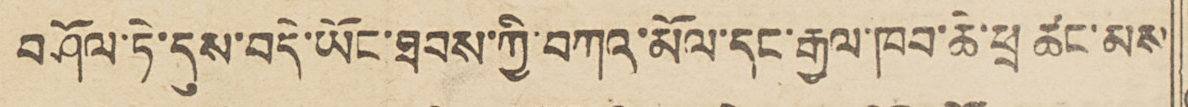བཤོལ་ཏེ་དུས་བདེ་ཡོང་ཐབས་ཀྱི་བཀའ་མོལ་དང་རྒྱལ་ཁབ་ཆེ་ཕྲ ཚང་མས
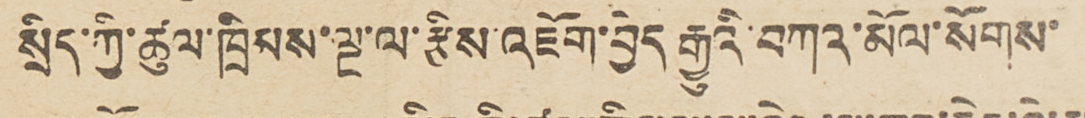སྲིད་ཀྱི་ཚུལ་ཁྲིམས་ལྔ་ལ་རྩིས་འཇོག་བྱེད རྒྱུའི་བཀའ་མོལ་སོགས་
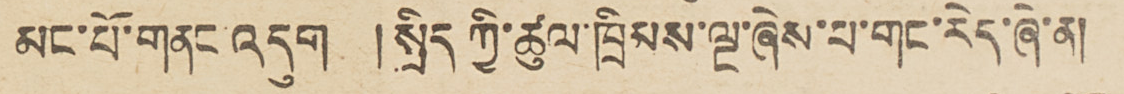མང་པོ་གནང་འདུག །སྲིད ཀྱི་ཚུལ་ཁྲིམས་ལྔ་ཞེས་པ་གང་རེད་ཞེ་ན།
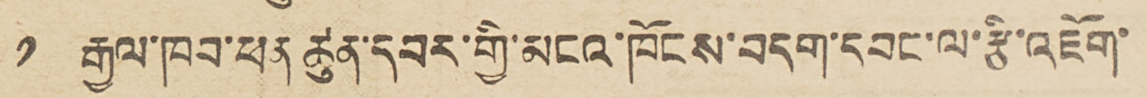༡ རྒྱལ་ཁབ་ཕན ཚུན་དབར་གྱི་མངའ་ཁོངས་བདག་དབང་ལ་རྩི་འཇོག་
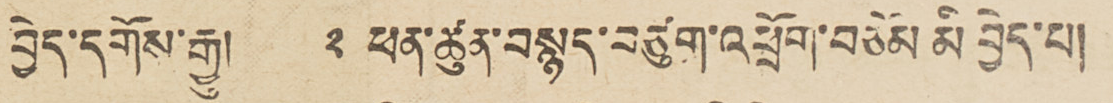བྱེད་དགོས་རྒྱུ། ༢ ཕན་ཚུན་བསྙད་བཙུག་འཕྲོག་བཅོམ མི བྱེད་པ།
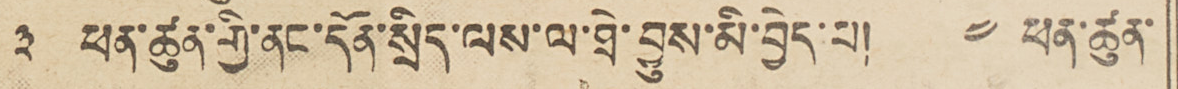༣ ཕན་ཚུན་གྱི་ནང་དོན་སྲིད་ལས་ལ་ཐེ་བྱུས་མི་བྱེད་པ། ༤ ཕན་ཚུན་
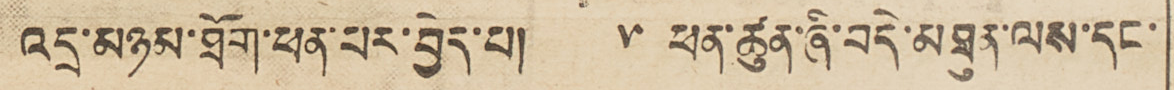འདྲ་མཉམ་ཐོག་ཕན་པར་བྱེད་པ། ༥ ཕན་ཚུན་ཞི་བདེ་མཐུན་ལས་དང་
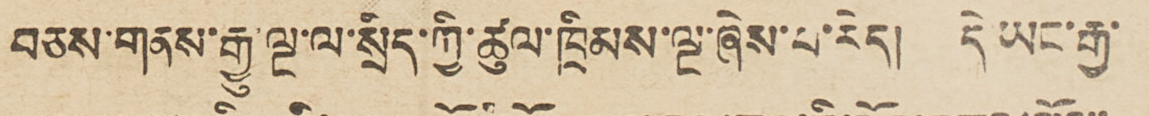བཅས་གནས་རྒྱུ་ལྔ་ལ་སྲིད་ཀྱི་ཚུལ་ཁྲིམས་ལྔ་ཞེས་པ་རེད། དེ ཡང་རྒྱ་
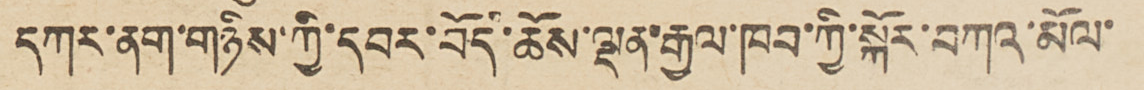དཀར་ནག་གཉིས་ཀྱི་དབར་བོད་ཆོས་ལྡན་རྒྱལ་ཁབ་ཀྱི་སྐོར་བཀའ་མོལ་
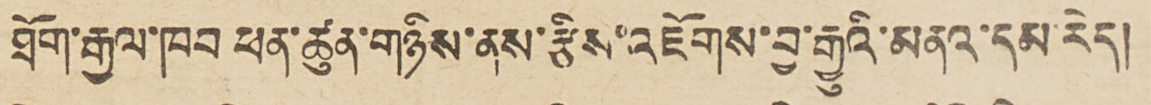ཐོག་རྒྱལ་ཁབ ཕན་ཚུན་གཉིས་ནས་རྩིས་འཇོགས་བྱ་རྒྱུའི་མནའ་དམ་རེད།
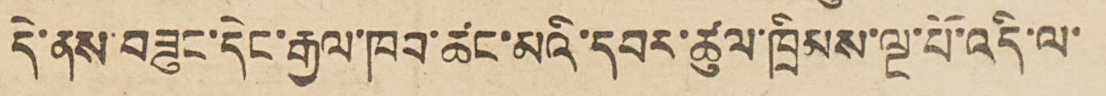དེ་ནས་བཟུང་དེང་རྒྱལ་ཁབ་ཚང་མའི་དབར་ཚུལ་ཁྲིམས་ལྔ་པོ་འདི་ལ་
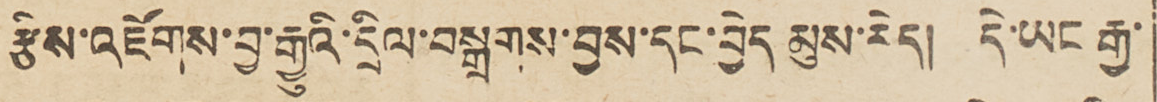རྩིས་འཇོགས་བྱ་རྒྱུའི་དྲིལ་བསྒྲགས་བྱས་དང་བྱེད མུས་རེད། དེ་ཡང རྒྱ་
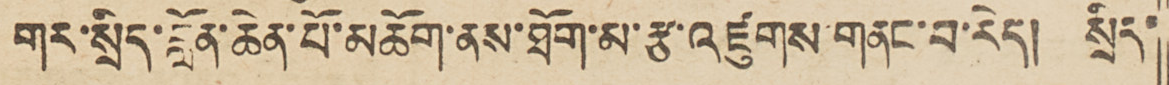གར་སྲིད་བློན་ཆེན་པོ་མཆོག་ནས་ཐོག་མ་རྩ་འཛུགས་གནང་བ་རེད། སྲིད་
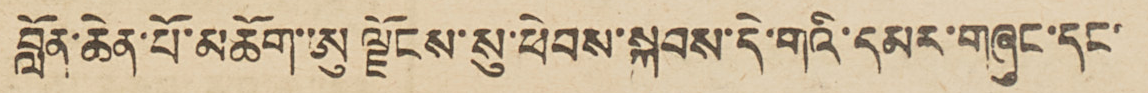བློན་ཆེན་པོ་མཆོག་ཨུ ལྗོངས་སུ་ཕེབས་སྐབས་དེ་གའི་དམར་གཞུང་དང་
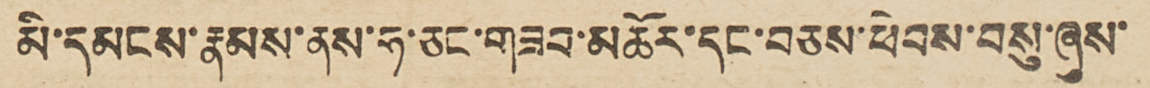མི་དམངས་རྣམས་ནས་ཧ་ཅང་གཟབ་མཆོར་དང་བཅས་ཕེབས་བསུ་ཞུས་
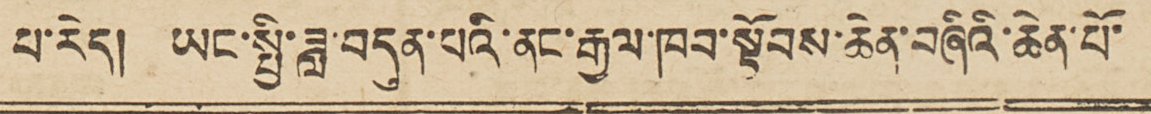པ་རེད། ཡང་སྤྱི་ཟླ་བདུན་པའི་ནང་རྒྱལ་ཁབ་སྟོབས་ཆེན་བཞིའི་ཆེན་པོ་
